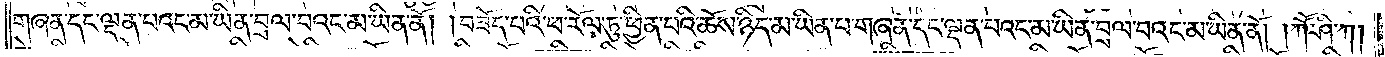གཞན་དང་ལྡན་པའང་མ་ཡིན་བྲལ་བའང་མ་ཡིན་ནོ། །བཟོད་པའི་ཕ་རོལ་ཏུ་ཕྱིན་པའི་ཆོས་ཉིད་མ་ཡིན་པ་གཞན་དང་ལྡན་པའང་མ་ཡིན་བྲལ་བའང་མ་ཡིན་ནོ། །ཀཽ་ཤི་ཀ།
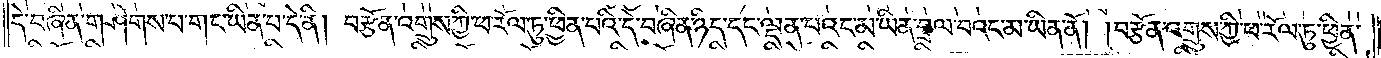དེ་བཞིན་གཤེགས་པ་གང་ཡིན་པ་དེ་ནི། བརྩོན་འགྲུས་ཀྱི་ཕ་རོལ་ཏུ་ཕྱིན་པའི་དེ་བཞིན་ཉིད་དང་ལྡན་པའང་མ་ཡིན་བྲལ་བའང་མ་ཡིན་ནོ། །བརྩོན་འགྲུས་ཀྱི་ཕ་རོལ་ཏུ་ཕྱིན་
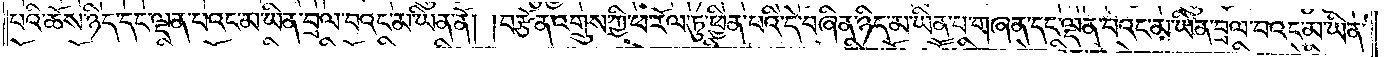པའི་ཆོས་ཉིད་དང་ལྡན་པའང་མ་ཡིན་བྲལ་བའང་མ་ཡིན་ནོ། །བརྩོན་འགྲུས་ཀྱི་ཕ་རོལ་ཏུ་ཕྱིན་པའི་དེ་བཞིན་ཉིད་མ་ཡིན་པ་གཞན་དང་ལྡན་པའང་མ་ཡིན་བྲལ་བའང་མ་ཡིན་
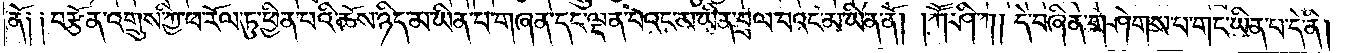ནོ། །བརྩོན་འགྲུས་ཀྱི་ཕ་རོལ་ཏུ་ཕྱིན་པའི་ཆོས་ཉིད་མ་ཡིན་པ་གཞན་དང་ལྡན་པའང་མ་ཡིན་བྲལ་བའང་མ་ཡིན་ནོ། །ཀཽ་ཤི་ཀ། དེ་བཞིན་གཤེགས་པ་གང་ཡིན་པ་དེ་ནི།
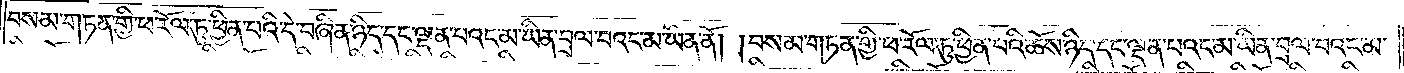བསམ་གཏན་གྱི་ཕ་རོལ་ཏུ་ཕྱིན་པའི་དེ་བཞིན་ཉིད་དང་ལྡན་པའང་མ་ཡིན་བྲལ་བའང་མ་ཡིན་ནོ། །བསམ་གཏན་གྱི་ཕ་རོལ་ཏུ་ཕྱིན་པའི་ཆོས་ཉིད་དང་ལྡན་པའང་མ་ཡིན་བྲལ་བའང་མ་
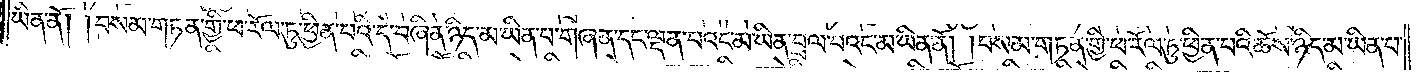ཡིན་ནོ། །བསམ་གཏན་གྱི་ཕ་རོལ་ཏུ་ཕྱིན་པའི་དེ་བཞིན་ཉིད་མ་ཡིན་པ་གཞན་དང་ལྡན་པའང་མ་ཡིན་བྲལ་བའང་མ་ཡིན་ནོ། །བསམ་གཏན་གྱི་ཕ་རོལ་ཏུ་ཕྱིན་པའི་ཆོས་ཉིད་མ་ཡིན་པ་
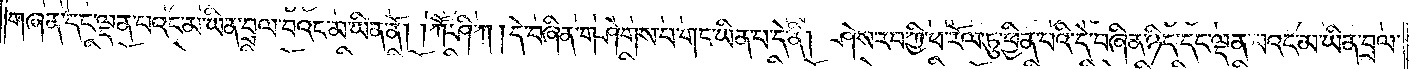གཞན་དང་ལྡན་པའང་མ་ཡིན་བྲལ་བའང་མ་ཡིན་ནོ། །ཀཽ་ཤི་ཀ །དེ་བཞིན་གཤེགས་པ་གང་ཡིན་པ་དེ་ནི། ཤེས་རབ་ཀྱི་ཕ་རོལ་ཏུ་ཕྱིན་པའི་དེ་བཞིན་ཉིད་དང་ལྡན་པའང་མ་ཡིན་བྲལ་
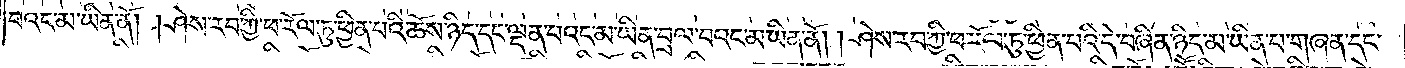བའང་མ་ཡིན་ནོ། །ཤེས་རབ་ཀྱི་ཕ་རོལ་ཏུ་ཕྱིན་པའི་ཆོས་ཉིད་དང་ལྡན་པའང་མ་ཡིན་བྲལ་བའང་མ་ཡིན་ནོ། །ཤེས་རབ་ཀྱི་ཕ་རོལ་ཏུ་ཕྱིན་པའི་དེ་བཞིན་ཉིད་མ་ཡིན་པ་གཞན་དང་
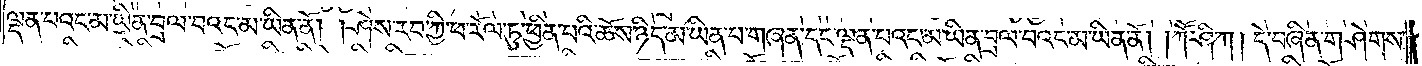ལྡན་པའང་མ་ཡིན་བྲལ་བའང་མ་ཡིན་ནོ། །ཤེས་རབ་ཀྱི་ཕ་རོལ་ཏུ་ཕྱིན་པའི་ཆོས་ཉིད་མ་ཡིན་པ་གཞན་དང་ལྡན་པའང་མ་ཡིན་བྲལ་པའང་མ་ཡིན་ནོ། །ཀཽ་ཤི་ཀ། དེ་བཞིན་གཤེགས་
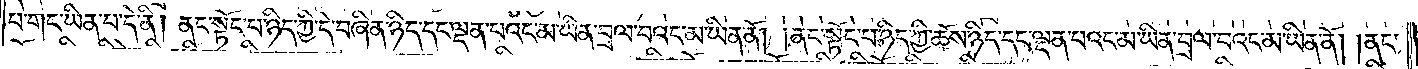པ་གང་ཡིན་པ་དེ་ནི། ནང་སྟོང་པ་ཉིད་ཀྱི་དེ་བཞིན་ཉིད་དང་ལྡན་པའང་མ་ཡིན་བྲལ་བའང་མ་ཡིན་ནོ། །ནང་སྟོང་པ་ཉིད་ཀྱི་ཆོས་ཉིད་དང་ལྡན་པའང་མ་ཡིན་བྲལ་བའང་མ་ཡིན་ནོ། །ནང་
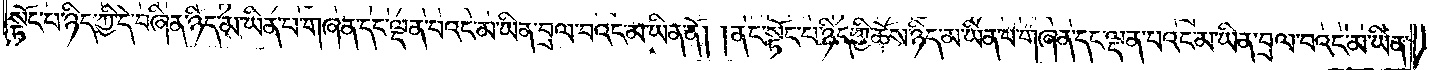སྟོང་པ་ཉིད་ཀྱི་དེ་བཞིན་ཉིད་མ་ཡིན་པ་གཞན་དང་ལྡན་པའང་མ་ཡིན་བྲལ་བའང་མ་ཡིན་ནོ། །ནང་སྟོང་པ་ཉིད་ཀྱི་ཆོས་ཉིད་མ་ཡིན་པ་གཞན་དང་ལྡན་པའང་མ་ཡིན་བྲལ་བའང་མ་ཡིན་
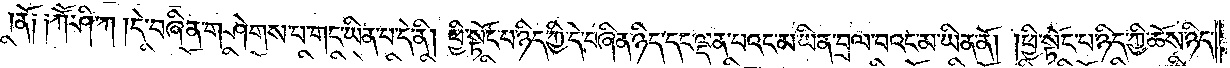ན༑༑ཀཽ་ཤི་ཀ །དེ་བཞིན་གཤེགས་པ་གང་ཡིན་པ་དེ་ནི། ཕྱི་སྟོང་པ་ཉིད་ཀྱི་དེ་བཞིན་ཉིད་དང་ལྡན་པའང་མ་ཡིན་བྲལ་བའང་མ་ཡིན་ནོ། །ཕྱི་སྟོང་པ་ཉིད་ཀྱི་ཆོས་ཉིད་
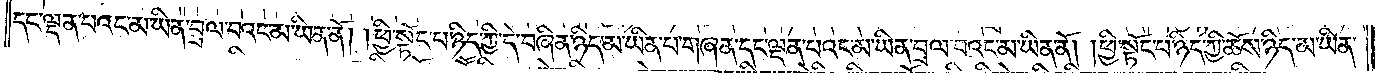དང་ལྡན་པའང་མ་ཡིན་བྲལ་བའང་མ་ཡིན་ནོ། །ཕྱི་སྟོང་པ་ཉིད་ཀྱི་དེ་བཞིན་ཉིད་མ་ཡིན་པ་གཞན་དང་ལྡན་པའང་མ་ཡིན་བྲལ་བའང་མ་ཡིན་ནོ། །ཕྱི་སྟོང་པ་ཉིད་ཀྱི་ཆོས་ཉིད་མ་ཡིན་
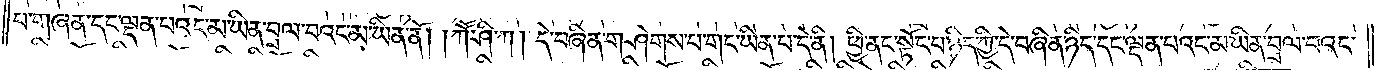པ་གཞན་དང་ལྡན་པའང་མ་ཡིན་བྲལ་བའང་མ་ཡིན་ནོ། །ཀཽ་ཤི་ཀ། དེ་བཞིན་གཤེགས་པ་གང་ཡིན་པ་དེ་ནི། ཕྱི་ནང་སྟོང་པ་ཉིད་ཀྱི་དེ་བཞིན་ཉིད་དང་ལྡན་པའང་མ་ཡིན་བྲལ་བའང་
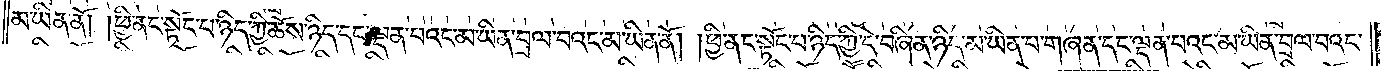མ་ཡིན་ནོ། །ཕྱི་ནང་སྟོང་པ་ཉིད་ཀྱི་ཆོས་ཉིད་དང་ལྡན་པའང་མ་ཡིན་བྲལ་བའང་མ་ཡིན་ནོ། །ཕྱི་ནང་སྟོང་པ་ཉིད་ཀྱི་དེ་བཞིན་ཉིད་མ་ཡིན་པ་གཞན་དང་ལྡན་པའང་མ་ཡིན་བྲལ་བའང་
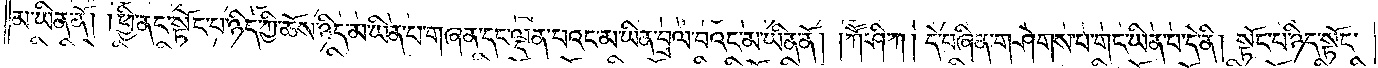མ་ཡིན་ནོ། །ཕྱི་ནང་སྟོང་པ་ཉིད་ཀྱི་ཆོས་ཉིད་མ་ཡིན་པ་གཞན་དང་ལྡན་པའང་མ་ཡིན་བྲས་པའང་མ་ཡིན་ནོ། །ཀཽ་ཤི་ཀ། དེ་བཞིན་གཤེག་པ་གང་ཡིན་པ་དེ་ནི། སྟོང་པ་ཉིད་སྟོང་
